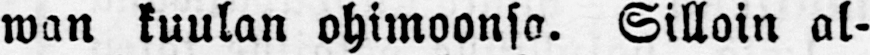wan kuulan ohimoonsa. Silloin al-
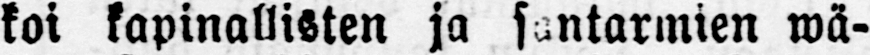koi kapinallisten ja santarmien wä-
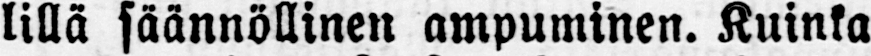lillä säännöllinen ampuminen. Kuinka
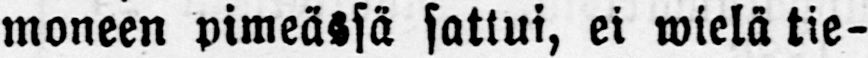moneen pimeässä sattui, ei wielä tie-
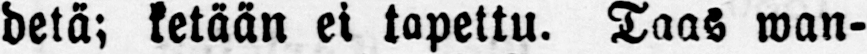detä; ketään ei tapettu. Taas wan-
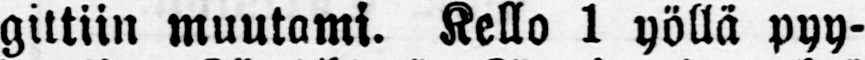gittiin muutami. Kello 1 yöllä pyy-
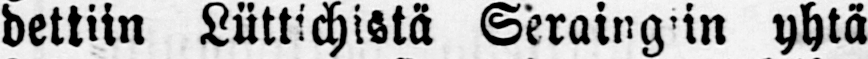dettiin Lüttichistä Seraingin yhtä
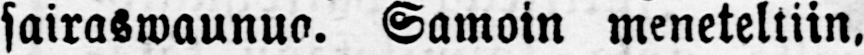sairaswaunua. Samoin meneteltiin.
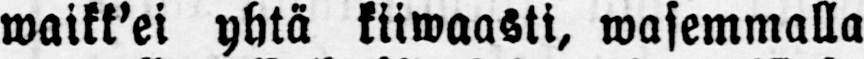waikk'ei yhtä kiiwaasti, wasemmalla
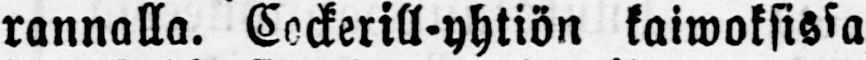rannalla. Ceckerill-yhtiön kaiwoksissa
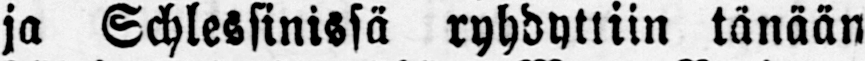ja Schlessinissä ryhdyttiin tänään
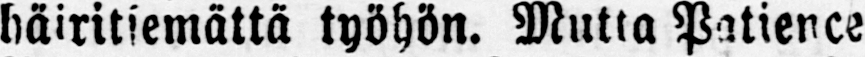häiritsemättä työhön. Mutta Patience
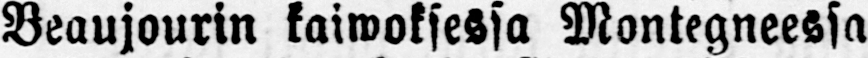Beaujourin kaiwoksessa Montegneessa
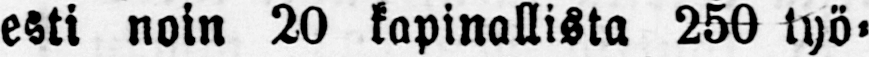esti noin 20 kapinallista 250 työ-
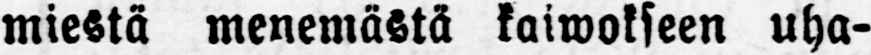miestä menemästä kaiwokseen uha-
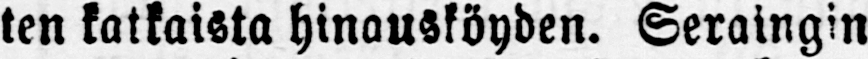ten katkaista hinausköyden. Seraingin
